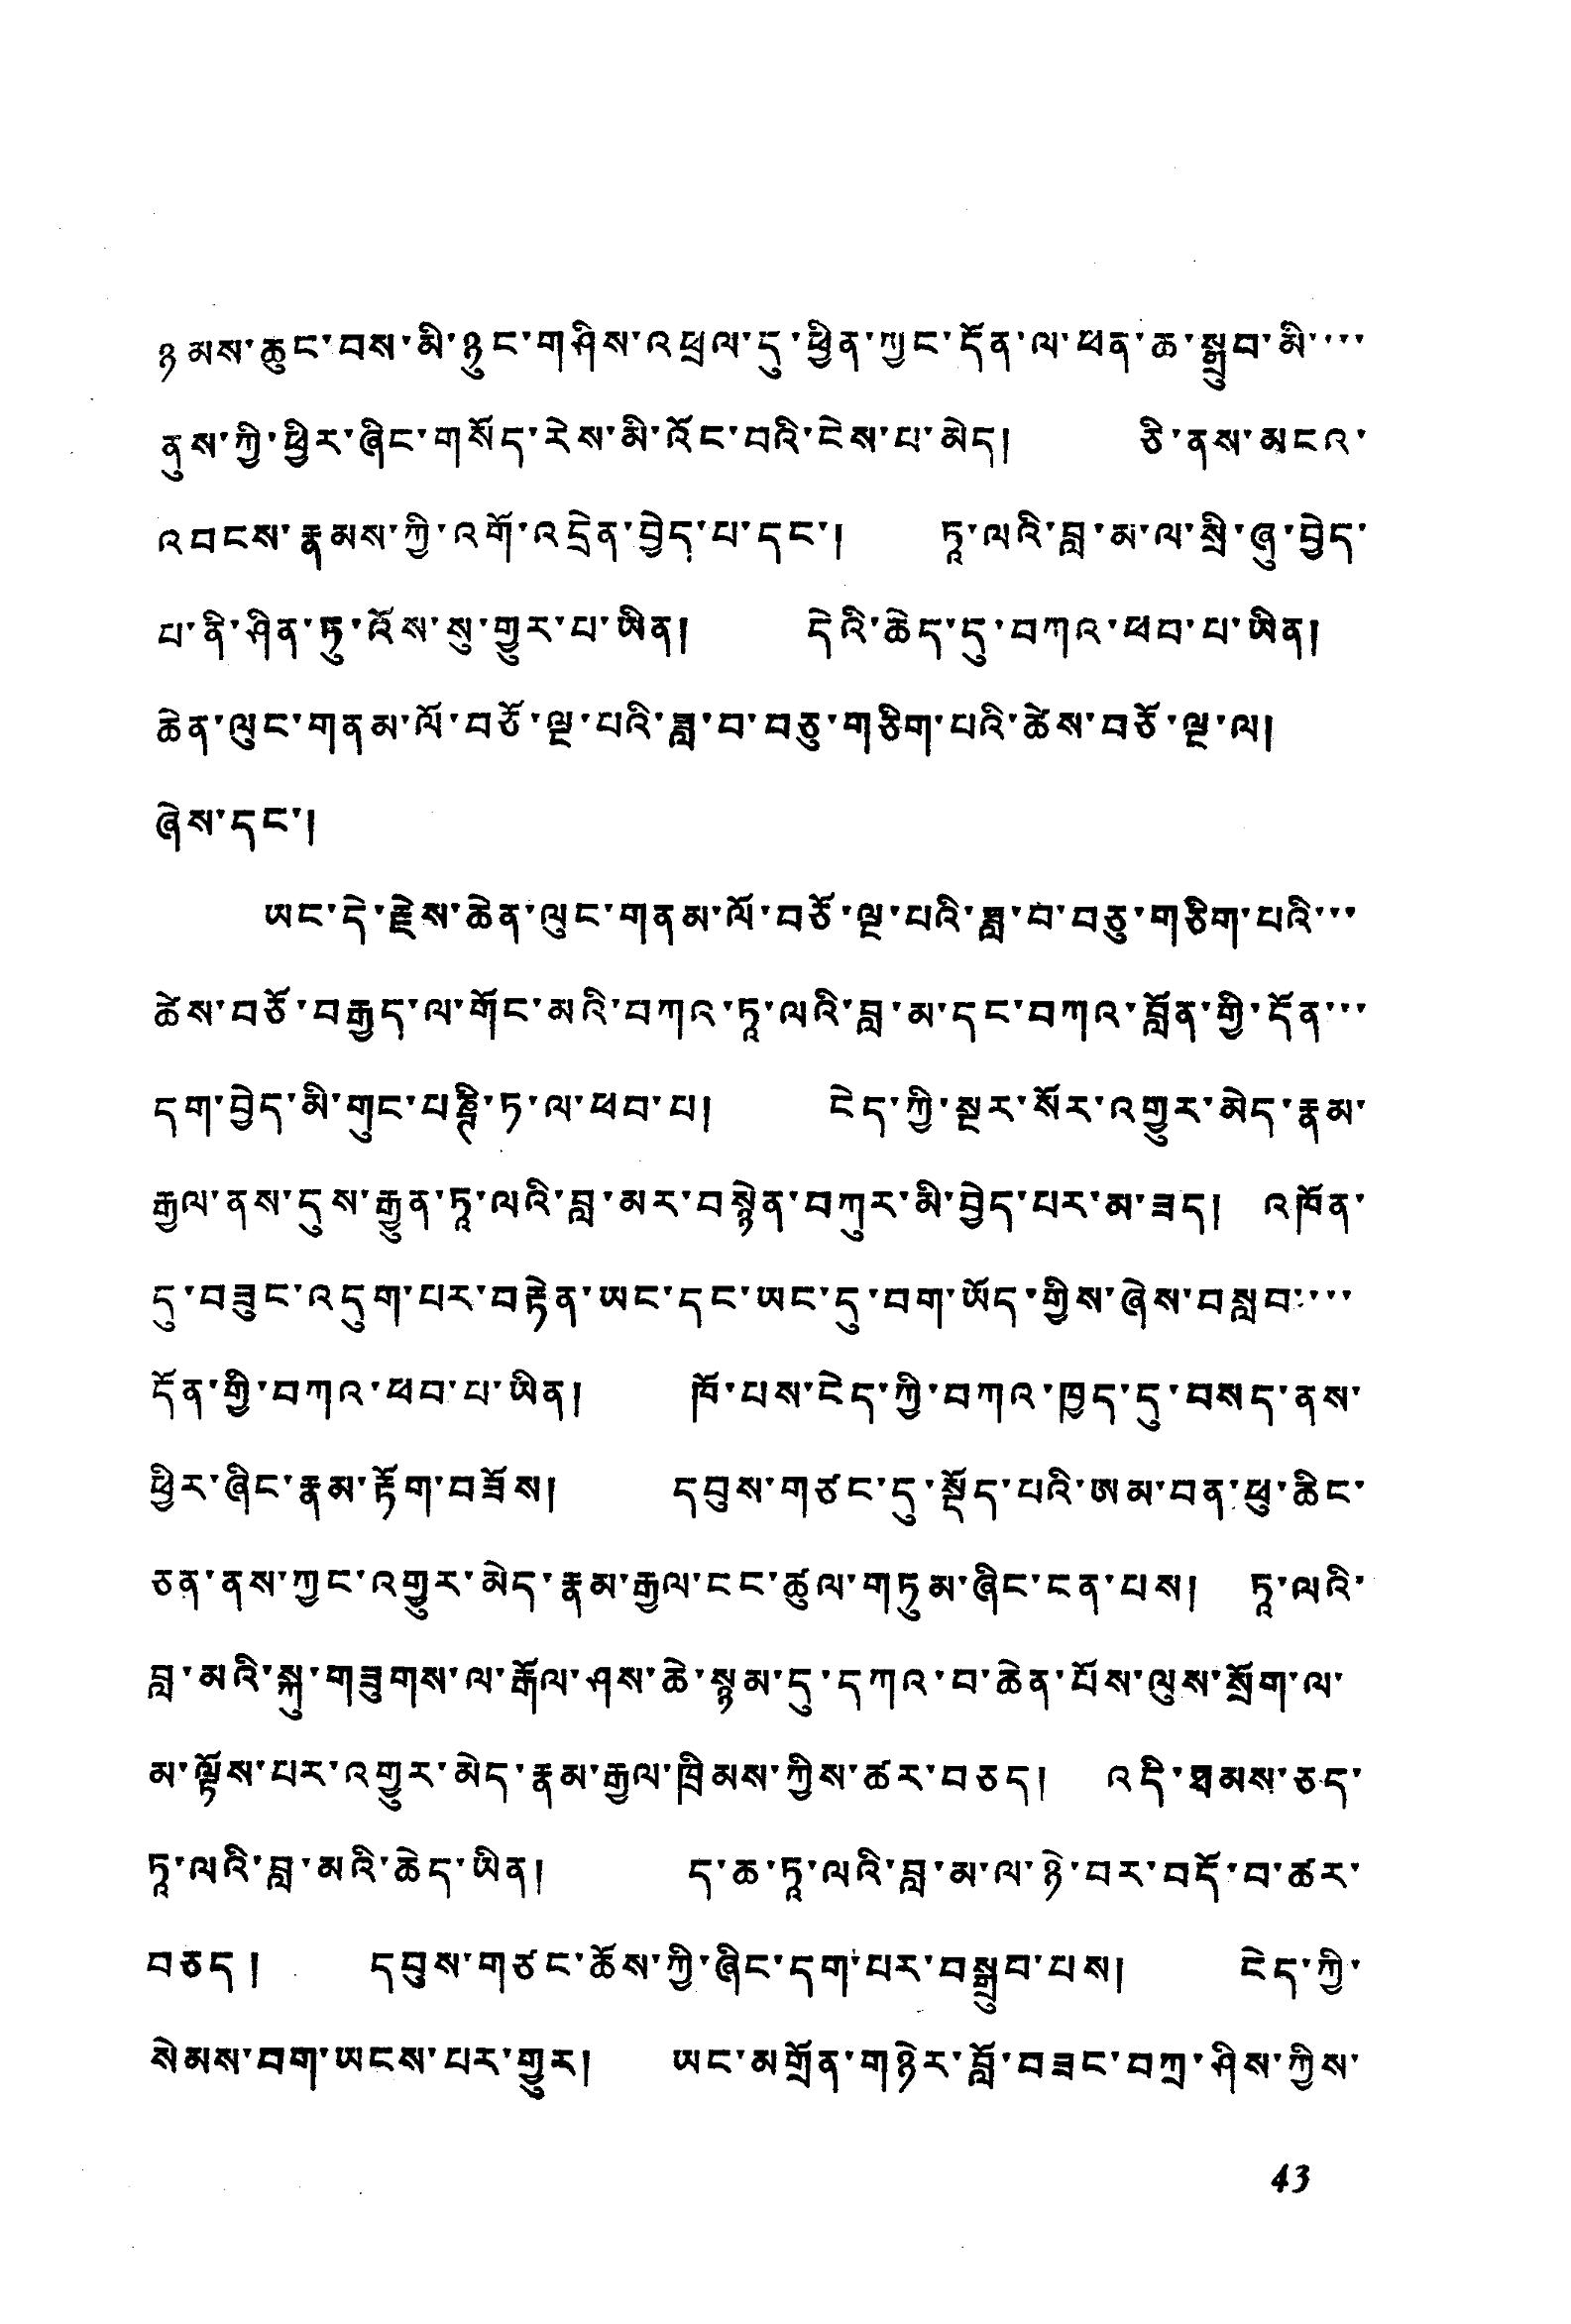ཉམས་ཆུང་བས་མི་ཉུང་གཤིས་འཕྲལ་དུ་ཕྱིན་ཀྱང་དོན་ལ་ཕན་ཆ་སྒྲུབ་མི་་་་
ནུས་ཀྱི་ཕྱིར་ཞིང་གསོད་རེས་མི་འོང་བའི་ངེས་པ་མེད། ཅི་ནས་མངའ་
འབངས་རྣམས་ཀྱི་འགོ་འདྲེན་བྱེད་པ་དང་། ཏཱ་ལའི་བླ་མ་ལ་སྲི་ཞུ་བྱེད་
པ་ནི་ཤིན་ཏུ་འོས་སུ་གྱུར་པ་ཡིན། དེའི་ཆེད་དུ་བཀའ་ཕབ་པ་ཡིན།
ཆེན་ལུང་གནམ་ལོ་བཅོ་ལྔ་པའི་ཟླ་བ་བཅུ་གཅིག་པའི་ཚེས་བཅོ་ལྔ་ལ།
ཞེས་དང་།
ཡང་དེ་རྗེས་ཆེན་ལུང་གནམ་ལོ་བཅོ་ལྔ་པའི་ཟླ་བ་བཅུ་གཅིག་པའི་་་
ཚེས་བཅོ་བརྒྱད་ལ་གོང་མའི་བཀའ་ཏའ་ལའི་བླ་མ་དང་བཀའ་བློན་གྱི་དོན་་་
དག་བྱེད་མི་གུང་པཎྚི་ཏ་ལ་ཕབ་པ། ངེད་ཀྱི་སྔ་སོར་འགྱུར་མེད་རྣམ་
རྒྱལ་ནས་དུས་རྒྱུན་ཏའ་ལའི་བླ་མར་བསྙེན་བཀུར་མི་བྱེད་པར་མ་ཟད། འཁོན་
དུ་བཟུང་འདུག་པར་བརྟེན་ཡང་དང་ཡང་དུ་བག་ཡོད་གྱིས་ཞེས་བསླབ་་་་
དོན་གྱི་བཀའ་ཕབ་པ་ཡིན། ཁོ་པས་ངེད་ཀྱི་བཀའ་ཁྱད་དུ་བསད་ནས་
ཕྱིར་ཞིང་རྣམ་རྟོག་བཟོས། དབུས་གཙང་དུ་སྡོད་པའི་ཨམ་བན་ཕུ་ཆིང་
ཅན་ནས་ཀྱང་འགྱུར་མེད་རྣམ་རྒྱལ་ངང་ཚུལ་གཏུམ་ཞིང་ངན་པས། ཏཱ་ལའི་
བླ་མའི་སྐུ་གཟུགས་ལ་རྒོལ་ཤས་ཆེ་སྙམ་དུ་དཀའ་བ་ཆེན་པོས་ལུས་སྲོག་ལ་
མ་ལྟོས་པར་འགྱུར་མེད་རྣམ་རྒྱལ་ཁྲིམས་ཀྱིས་ཚར་བཅད། འདི་ཐམས་ཅད་
ཏཱ་ལའི་བླ་མའི་ཆེད་ཡིན། ད་ཆ་ཏཱ་ལའི་བླ་མ་ལ་ཉེ་བར་བདོ་བ་ཚར་
བཅད། དབུས་གཙང་ཆོས་ཀྱི་ཞིང་དག་པར་བསྒྲུབ་པས། ངེད་ཀྱི་
སེམས་བག་ཡངས་པར་གྱུར། ཡང་མགྲོན་གཉེར་བློ་བཟང་བཀྲ་ཤིས་ཀྱིས་
43
